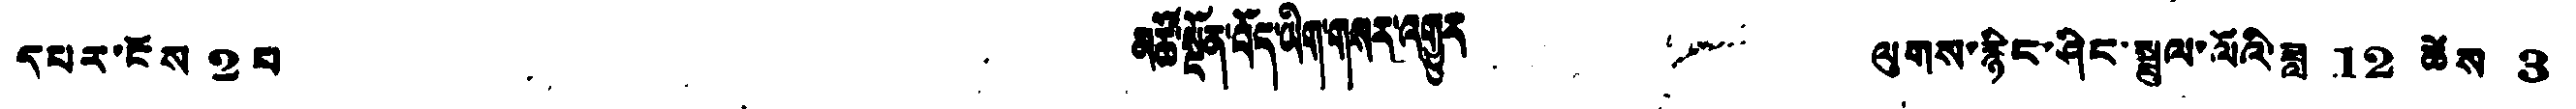དཔར་ངོས 2 པ མཆོ་སྔོན་བོད་ཡིག་གསར་འགྱུར ལུགས་རྙིང་ཤིང་སྦྲུལ་ལོའི་ཟླ 12 ཚེས 3
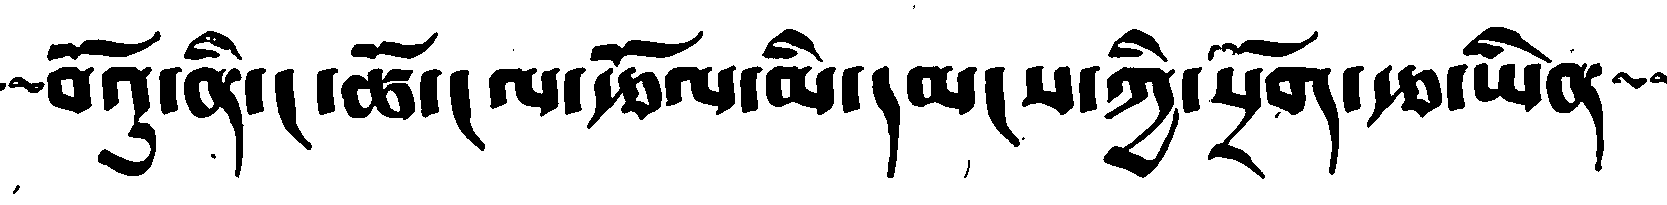བོའུ་ནི་ང་ཚོ་ངལ་རྩོལ་མི་དམངས་ཀྱི་སྲོག་རྩ་ཡིན
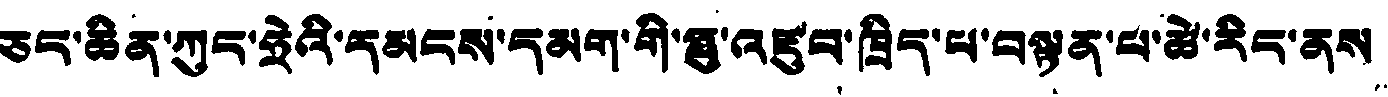ཅང་ཆིན་ཀུང་ཧྲེའི་དམངས་དམག་གི་ཧྥུ་འཛུབ་ཁྲིད་ལ་བསྟན་པ་ཚེ་རིང་ནས
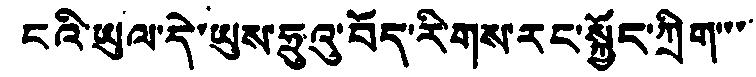ངའི་ཡུལ་དེ་ཡུས་ཧྲུའུ་བོད་རིགས་རང་སྐྱོང་ཀྲིག་་་་
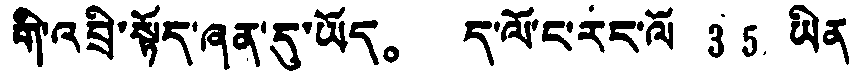གི་འབྲི་སྟོད་ཞན་དུ་ཡོད。 ད་ལོ་ང་རང་ལོ 35 ཡིན
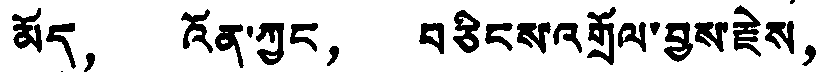མོད， འོན་ཀྱང， བཅིངས་འགྲོལ་བྱས་རྗེས，
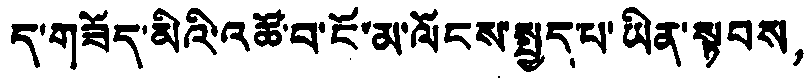ད་གཟོད་མིའི་འཚོ་བ་ངོ་མ་ལོངས་སྤྲད་པ་ཡིན་སྟབས，
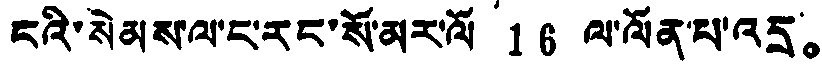ངའི་སེམས་ལ་ང་རང་སོ་མར་ལོ 16 ལ་ལོན་པ་འདྲ。
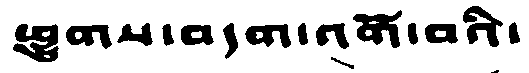ཕྱུགས་བདག་འགོ་བའི་
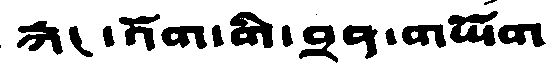རྐང་འོག་གི་བྲན་གཡོག
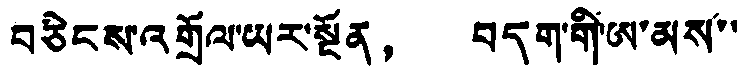བཅིངས་འགྲོལ་ཡར་སྔོན， བདག་གི་ཨ་མས་་
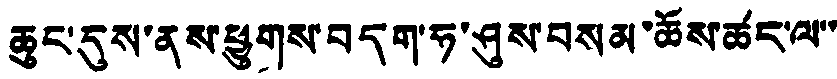ཆུང་དུས་ནས་ཕྱུགས་བདག་ཏུ་ཤུས་བསམ་ཚོས་ཚང་ལ་་
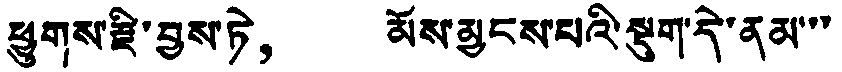ཕྱུགས་རྫི་བྱས་ཏེ， མོས་མྱངས་པའི་སྡུག་དེ་ནམ་་་
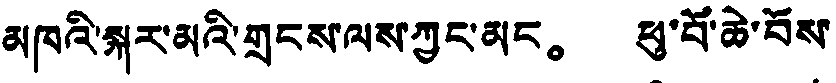མཁའི་སྐར་མའི་གྲངས་ལས་ཀྱང་མང。 ཕུ་བོ་ཆེ་བོས་
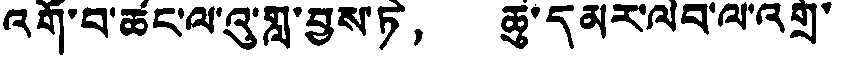འགོ་བ་ཚང་ལ་འུ་གྲ་བྱས་ཏེ， ཆུ་དམར་ལབ་ལ་འགྲ་
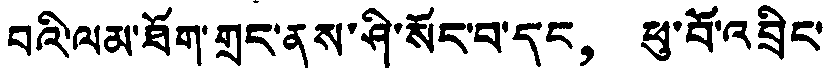བའི་ལམ་ཐོག་གྲང་ནས་ཤི་སོང་བ་དང， ཕུ་བོ་འབྲིང་
